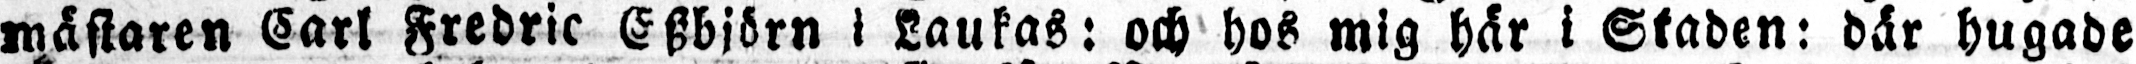mästaren Carl Fredric Eszbjörn i Laukas: och hos mig här i Staden: där hugade
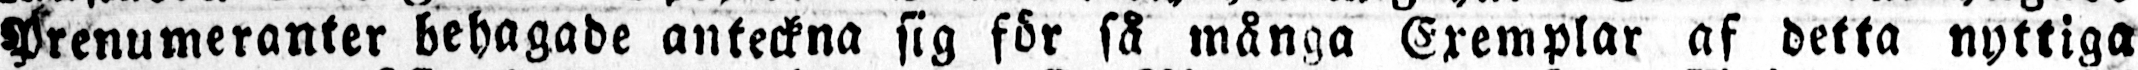Prenumeranter behagade anteckna sig för så många Exemplar af detta nyttiga
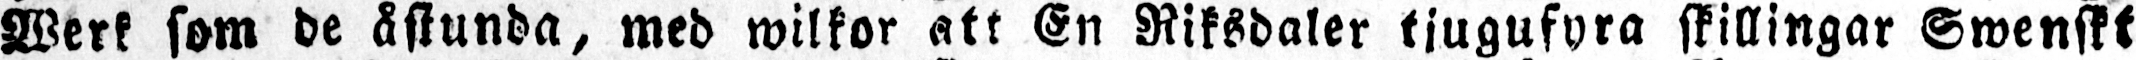Werk som de åstunda, med wilkor att En Riksdaler tjugufyra skillingar Swenskt
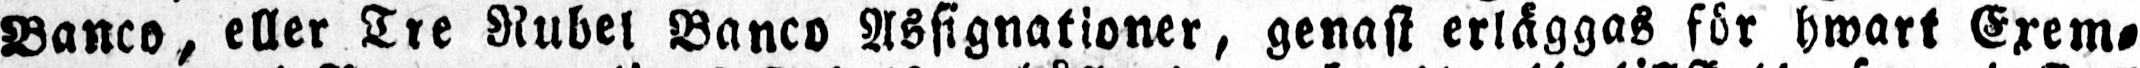Banco, eller Tre Rubel Banco Assignationer, genast erläggas för hwart Exem-
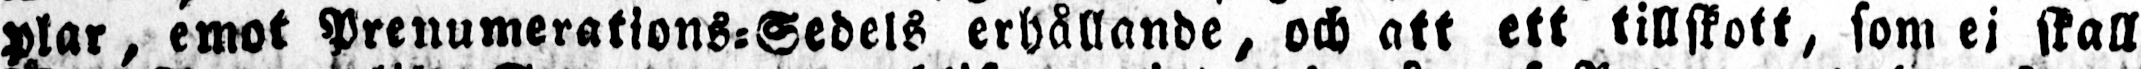plar, emot Prenumerations-Sedels erhållande, och att ett tillskott, som ej skall
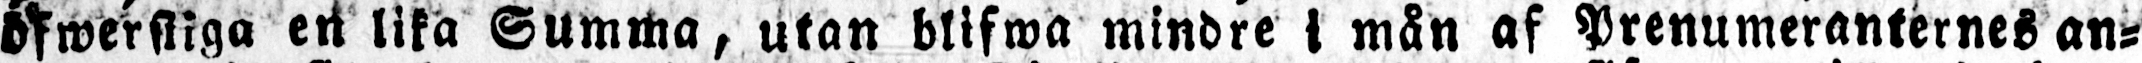öfwerstiga en lika Summa, utan blifwa mindre i mån af Prenumeranternes an-
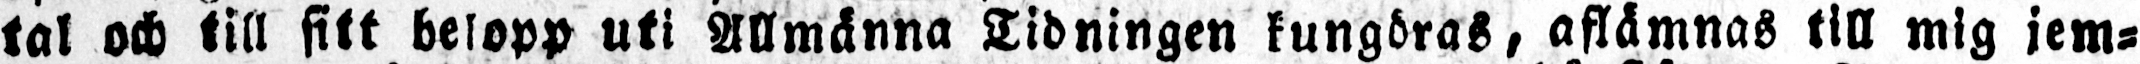tal och till sitt belopp uti Allmänna Tidningen kungöras, aflämnas till mig jem-
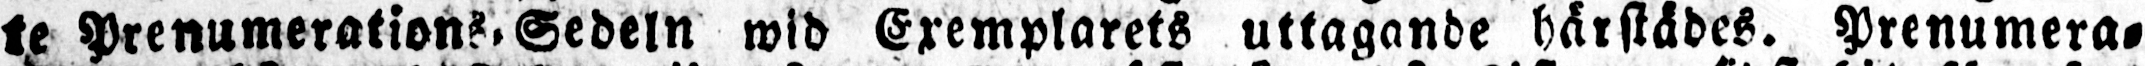te Prenumerations-Sedeln wid Exemplarets uttagande härstädes. Prenumera-
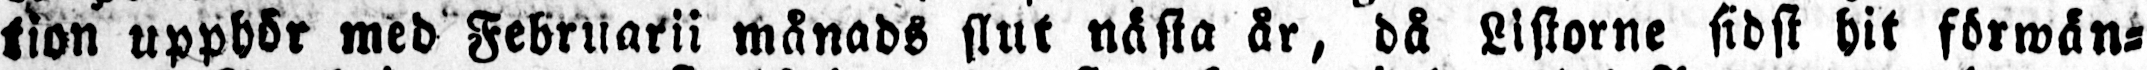tion upphör med Februarii månads slut nästa år, då Listorne sidst hit förwän-
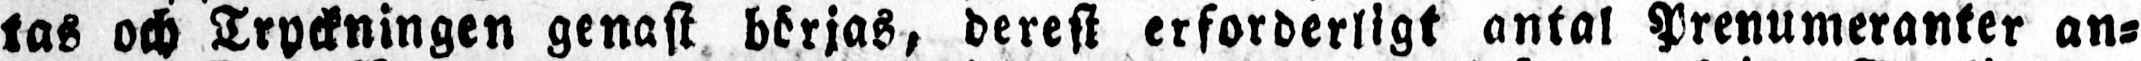tas och Tryckningen genast börjas, berest erforderligt antal Prenumeranter an-
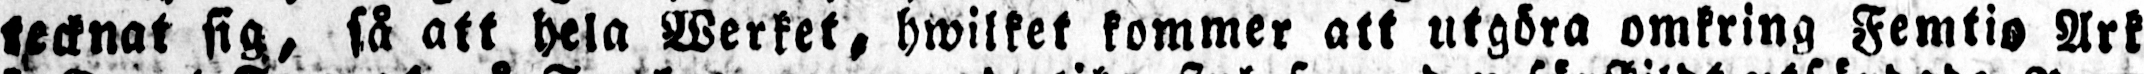tecknat sig, så att hela Werket, hwilket kommer att utgöra omkring Femtio Ark
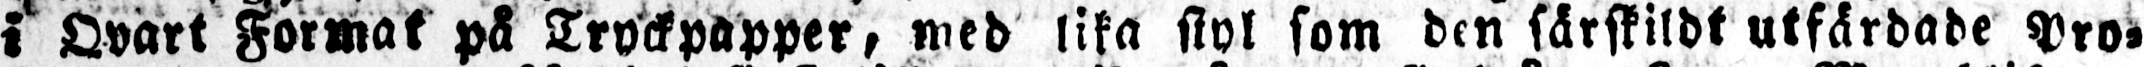i Qvart Format på Tryckpapper, med lika styl som den särskildt utfärdade Pro-
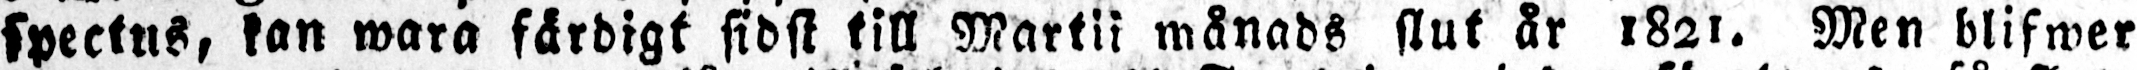spectus, kan wara färdigt sidst till Martii månads slut år 1821. Men blifwer
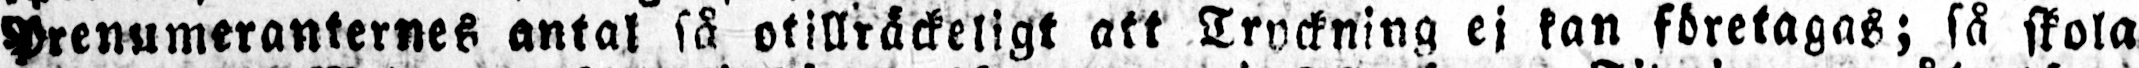Prenumeranternes antal så otillräckeligt att Tryckning ej kan företagas; så skola
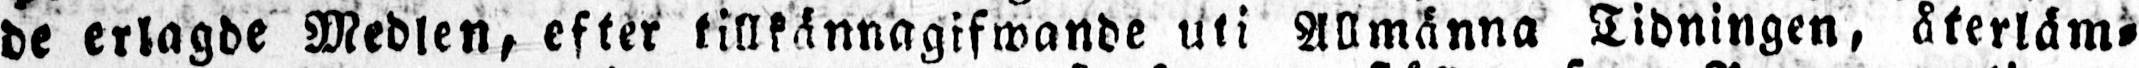de erlagde Medlen, efter tillkännagifwande uti Allmänna Tidningen, återläm-
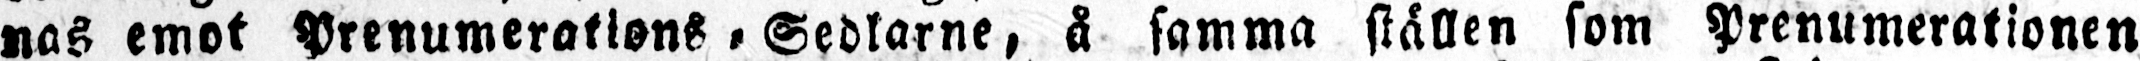nas emot Prenumerations-Sedlarne, å samma ställen som Prenumerationen
